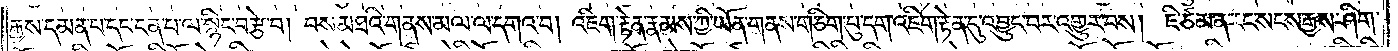རྒྱས་དམན་པ་དང་ངན་པ་ལ་སྙིང་བརྩེ་བ། བས་མཐའི་གནས་མལ་ལ་དགའ་བ། འཇིག་རྟེན་རྣམས་ཀྱི་ཡོན་གནས་གཅིག་པུ་དག་འཇིག་རྟེན་དུ་འབྱུང་བར་འགྱུར་བས། ཇི་ཙམ་ན་རང་སངས་རྒྱས་ཤིག་
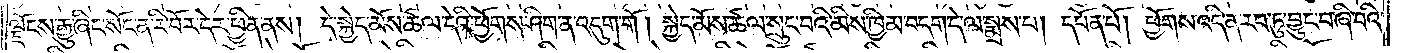ལྗོངས་རྒྱུ་ཞིང་སོང་ན་རི་བོར་དེར་ཕྱིན་ནས། དེ་སྐྱེད་མོས་ཚལ་དེའི་ཕྱོགས་ཤིག་ན་འདུག་གོ། སྐྱེད་མོས་ཚལ་སྲུང་བའི་མིས་ཁྱིམ་བདག་དེ་ལ་སྨྲས་པ། དཔོན་པོ། ཕྱོགས་འདི་ན་རབ་ཏུ་བྱུང་བ་ཞི་བའི་
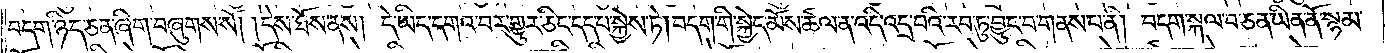བདག་ཉིད་ཅན་ཞིག་བཞུགས་སོ། །དེས་ཐོས་ནས། དེ་ཡིད་དགའ་བར་གྱུར་ཅིང་དད་པ་སྐྱེས་ཏེ། བདག་གི་སྐྱེད་མོས་ཚལ་ན་འདི་འདྲ་བའི་རབ་ཏུ་བྱུང་བ་གནས་པ་ནི། བདག་སྐལ་བ་ཅན་ཡིན་ནོ་སྙམ་
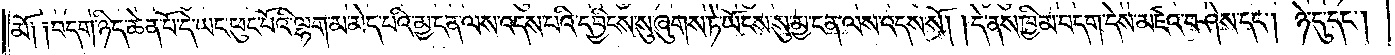མོ༑ ༑བདག་ཉིད་ཆེན་པོ་དེ་ཡང་ཕུང་པོའི་ལྷག་མ་མེད་པའི་མྱ་ངན་ལས་འདས་པའི་དབྱིངས་སུ་ཞུགས་ཏེ་ཡོངས་སུ་མྱ་ངན་ལས་འདས་སོ། །དེ་ནས་ཁྱིམ་བདག་དེས་མཛའ་བཤེས་དང༌། ཉེ་དུ་དང༌།
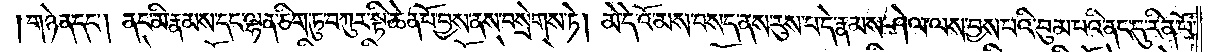གཉེན་དང༌། ནང་མི་རྣམས་དང་ལྷན་ཅིག་ཏུ་བཀུར་སྟི་ཆེན་པོ་བྱས་ནས་བསྲེགས་ཏེ། མེ་དེའོ་མས་བསད་ནས་རུས་པ་དེ་རྣམས་ཤེལ་ལས་བྱས་པའི་བུམ་པའི་ནང་དུ་རིན་པོ་
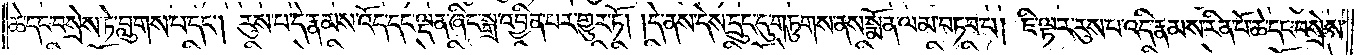ཆེ་དང་བསྲེས་ཏེ་བླུགས་པ་དང༌། རུས་པ་དེ་རྣམས་འོད་དང་ལྡན་ཞིང་སྒྲ་འབྱིན་པར་གྱུར་ཏོ། །དེ་ནས་དེས་དྲུང་དུ་གཏུགས་ནས་སྨོན་ལམ་བཏབ་པ། ཇི་ལྟར་རུས་པ་འདི་རྣམས་རིན་པོ་ཆེ་དང་བསྲེས་
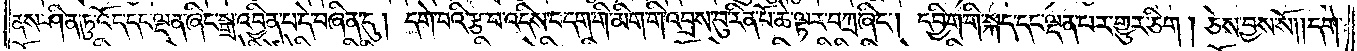ནས་ཤིན་ཏུ་འོད་དང་ལྡན་ཞིང་སྒྲ་འབྱིན་པ་དེ་བཞིན་དུ། དགེ་བའི་རྩ་བ་འདིས་བདག་གི་མིག་གི་འབྲས་བུ་རིན་པོ་ཆེ་ལྟར་བཀྲ་ཞིང༌། དབྱིག་གི་སྐད་དང་ལྡན་པར་གྱུར་ཅིག །ཅེས་བྱས་སོ། །དགེ་
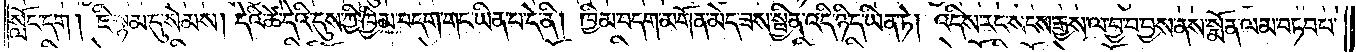སློང་དག། ཇི་སྙམ་དུ་སེམས། དེའི་ཚེ་དེའི་དུས་ཀྱི་ཁྱིམ་བདག་གང་ཡིན་པ་དེ་ནི། ཁྱིམ་བདག་མགོན་མེད་ཟས་སྦྱིན་འདི་ཉིད་ཡིན་ཏེ། འདིས་རང་སངས་རྒྱས་ལ་བྱ་བ་བྱས་ནས་སྨོན་ལམ་བཏབ་པ་
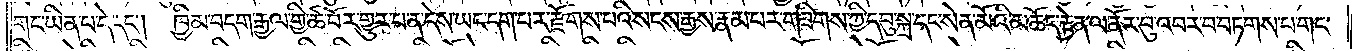གང་ཡིན་པ་དེ་དང༌། ཁྱིམ་བདག་རྒྱལ་གྱི་ཚ་བོར་གྱུར་པ་ན་དེས་ཡང་དག་པར་རྫོགས་པའི་སངས་རྒྱས་རྣམ་པར་གཟིགས་ཀྱི་དབུ་སྐྲ་དང་སེན་མོའི་མཆོད་རྟེན་ལ་ནོར་བུ་འབར་བ་བཏགས་པ་གང་
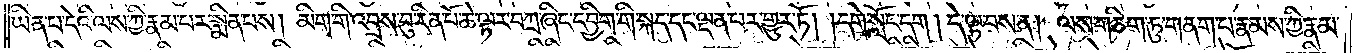ཡིན་པ་དེའི་ལས་ཀྱི་རྣམ་པར་སྨིན་པས། མིག་གི་འབྲས་བུ་རིན་པོ་ཆེ་ལྟར་བཀྲ་ཞིང་དབྱིག་གི་སྐད་དང་ལྡན་པར་གྱུར་ཏོ། །དགེ་སློང་དག། དེ་ལྟ་བས་ན། ལས་གཅིག་ཏུ་གནག་པ་རྣམས་ཀྱི་རྣམ་
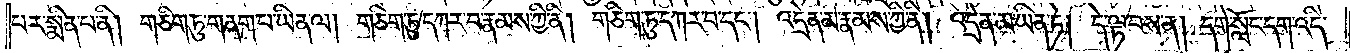པར་སྨིན་པ་ནི། གཅིག་ཏུ་གནག་པ་ཡིན་ལ། གཅིག་ཏུ་དཀར་བ་རྣམས་ཀྱི་ནི། གཅིག་ཏུ་དཀར་བ་དང༌། འདྲེན་མ་རྣམས་ཀྱི་ནི། འདྲེན་མ་ཡིན་ཏེ། དེ་ལྟ་བས་ན། དགེ་སློང་དག་འདི་
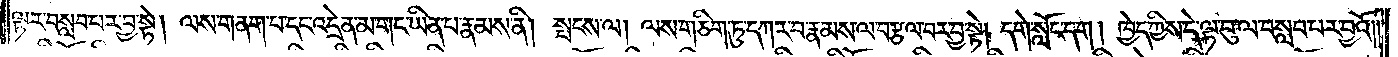ལྟར་བསླབ་པར་བྱ་སྟེ། ལས་གནག་པ་དང་འདྲེན་མ་གང་ཡིན་པ་རྣམས་ནི། སྤངས་ལ། ལས་གཅིག་ཏུ་དཀར་བ་རྣམས་ལ་བཙལ་བར་བྱ་སྟེ། དགེ་སློང་དག། ཁྱེད་ཀྱིས་དེ་ལྟ་བུ་ལ་བསླབ་པར་བྱའོ༎
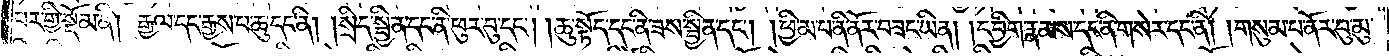བར་གྱི་སྡོམ་ནི། རྒྱལ་དང་རྒྱས་པ་ཆུ་དང་ནི། །སྲིད་སྦྱིན་དང་ནི་ཕུར་བུ་དང༌། །ཆུ་སྟོད་དང་ནི་ཟས་སྦྱིན་དང༌། །ཕྱི་མ་པ་ནི་ནོར་བཟང་ཡིན། །དབྱིག་རྣམས་དང་ནི་གསེར་དང་ནི། །གསུམ་པ་ནོར་བུ་མུ་
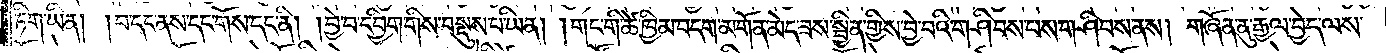ཏིག་ཡིན། །བ་དང་ནས་དང་གོས་དང་ནི། །བྱེ་བ་དབྱིག་གིས་བསྡུས་པ་ཡིན། །གང་གི་ཚེ་ཁྱིམ་བདག་མགོན་མེད་ཟས་སྦྱིན་གྱིས་བྱེ་བའི་གཤིབས་པས་གཤིབས་ནས། གཞོན་ནུ་རྒྱལ་བྱེད་ལས་
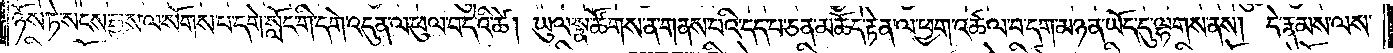ཉོས་ཏེ་སངས་རྒྱས་ལ་སོགས་པ་དགེ་སློང་གི་དགེ་འདུན་ལ་ཕུལ་བ་དེའི་ཚེ། ཡུལ་སྣ་ཚོགས་ན་གནས་པའི་དད་པ་ཅན་མཆོད་རྟེན་ལ་ཕྱག་འཚལ་བ་དག་མཉན་ཡོད་དུ་ལྷགས་ན། དེ་རྣམས་ལས་
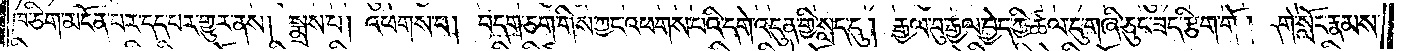ཁ་ཅིག་མངོན་པར་དད་པར་གྱུར་ནས། སྨྲས་པ། འཕགས་པ། བདག་ཅག་གིས་ཀྱང་འཕགས་པའི་དགེ་འདུན་གྱི་སླད་དུ། རྒྱལ་བུ་རྒྱལ་བྱེད་ཀྱི་ཚལ་དུ་གཞི་ཅུང་ཟད་རྩིག་གོ། དགེ་སློང་རྣམས་
